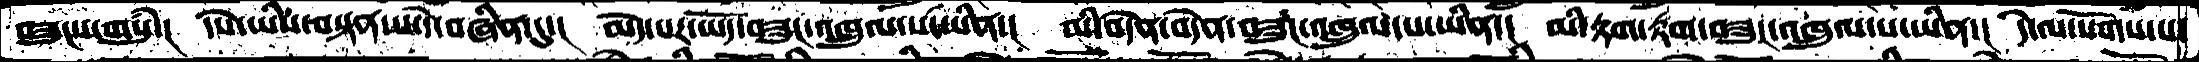བཟུངས་གསུཾ་།  དཔེ་ཡིས་བསྟན་པ་དེ་བཞིན་དུ་།  མེད་པར་ཡོད་བཟུང་འཁྲུལ་པ་ཡིན་།  མི་བདེན་བདེན་བཟུང་འཁྲུལ་པ་ཡིན་།  མི་རྟག་རྟག་བཟུང་འཁྲུལ་པ་ཡིན་།  དེ་ལ་སོགས་པ་
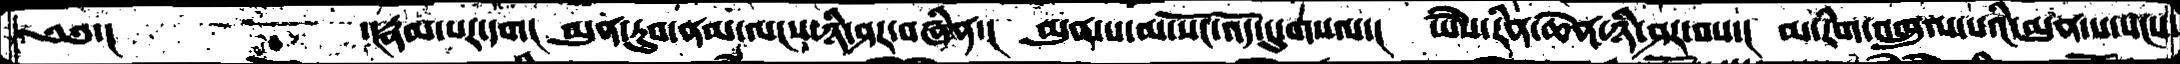༄༅་།        ་།རྣམ་པར་དག།  མུན་རུབ་ནམ་ལངས་ཉི་ཤར་བཞིན་།  མུན་པ་མ་སོང་འོད་དུ་གསལ་།  ཡཻས་རིན་ཆེན་ཉི་ཤར་བས་།  མ་རིག་འཁྲུལ་པའི་མུན་པ་སངས་
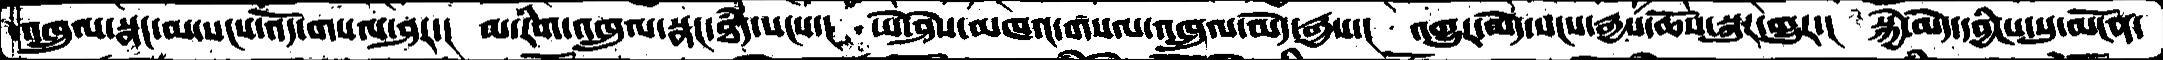འཁྲུལ་སྣང་མ་སངས་འོད་གསལ་ཤར་།  མ་རིག་འཁྲུལ་སྣང་ཐཾད་སངས་།  ཡེ་ཤེས་མཁའ་གསལ་འཁྲུལ་མེད་རྒྱས་།  འགྱུར་མེད་སངས་རྒྱས་ཆོས་སྐུར་གྱུར་།  སྐྱེ་མེད་དབྱིངས་སུ་མངོན་
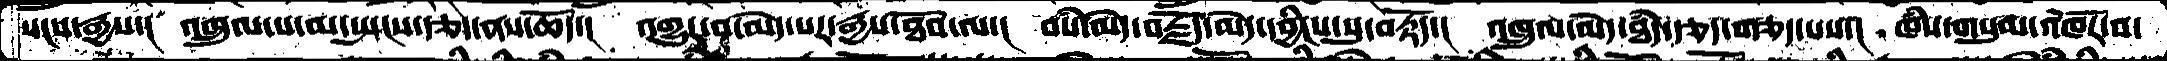སངས་རྒྱས་།  འཁྲུལ་པ་མ་སྤངས་རྩ་ནས་ཆོད་།  འགྱུར་བ་མེད་པར་རྒྱས་ཐོབ་ལ་།  བསཾ་མེད་བརྗོད་མེད་དབྱིངས་སུ་བརྟོད་།  འཁྲུལ་མེད་ཐཾད་རྩད་གཅད་པས་།  ཁཾས་གསུམ་འཁོར་བ་
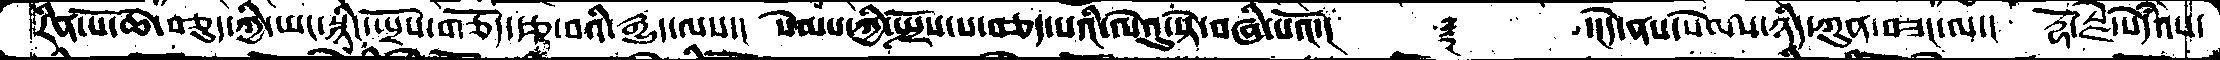རིན་པོ་ཆེ་བཅུད་ཀྱི་ཡང་སྙིང་སྤྲོས་གཅོད་རྩ་བའི་རྒྱུད་ལས་།  སེམས་ཀྱི་སྤྲོས་པ་བཅད་པའི་ལེའུ་སྟེ་བཞི་པའོ་།    ༈    ་།དེ་ནས་སེམས་ཉིད་ཀུན་བཟང་ལ་།  རྡོ་རྗེ་སེདཾའས་
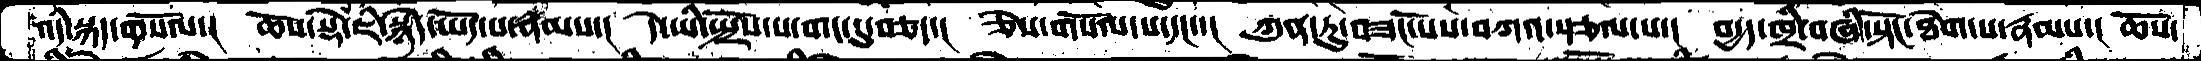འདི་སྐད་གསོལ་།  ཆོས་སྡེ་ཇི་སྙེད་ཡོད་པ་རྣམས་།  དེ་ཡི་སྤྲོས་པ་གང་དུ་བཅད་།  ཅེས་གསོལ་པ་དང་་།  ཀུན་ཏུ་བཟང་པོས་བཀའ་སྩལ་པ་།  བདྱད་ཁྲི་བཞི་སྟོང་ཐེག་པ་རྣམས་།  ཆོས་
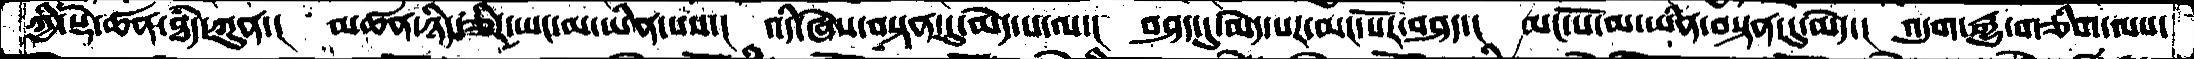ཀྱི་སྡེ་ཚན་ཐཾད་ཀུན་།  མཚན་ཉིད་ཅིར་ཡང་མ་ཡིན་པས་།  འདི་ཞེས་བསྟན་དུ་མེད་པ་ལ་།  བཤད་དུ་མེད་པར་མང་པོར་བཤད་།  མང་པོ་མ་ཡིན་བསྟན་དུ་མེད་།  འདུག་རྒྱུ་གཅིག་ལས་
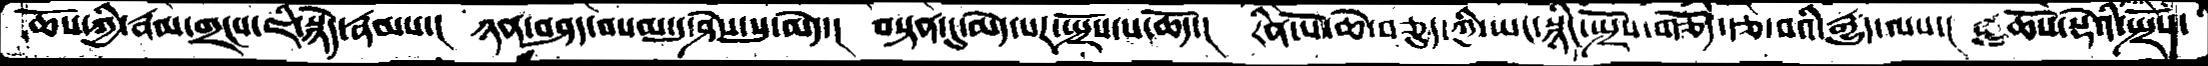ཆསོ་ཀྱི་རྣམ་གྲངས་ཇི་སྙེད་རྣམས་། ཉན་བཤད་བསམ་དུ་ཤེས་སུ་མེད་། བསྟན་དུ་མེད་པར་སྤྲོས་པ་ཆོད་། རིན་པོ་ཆེ་བཅུད་ཀྱི་ཡང་སྙིང་སྤྲོས་གཅོད་རྩ་བའི་རྒྱུད་ལས་། ཆོས་སྡེའི་སྤྲོས་
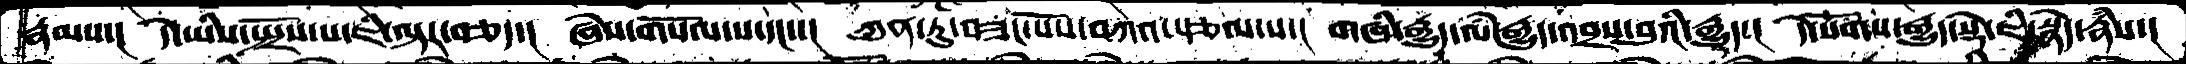རྣམས་།  དེ་ཡིས་སྤྲོས་པ་ཇི་ལྟར་བཅད་།  ཞེས་གསོལ་པ་དང་་།  ཀུན་ཏུ་བཟང་པོས་བཀའ་སྩལ་པ་།  གཞི་རྒྱུད་ལཾ་རྒྱུད་འབྲས་བུའི་རྒྱུད་།  དེ་སོགས་རྒྱུད་སྡེ་ཇི་སྙེད་རྣཾས་།
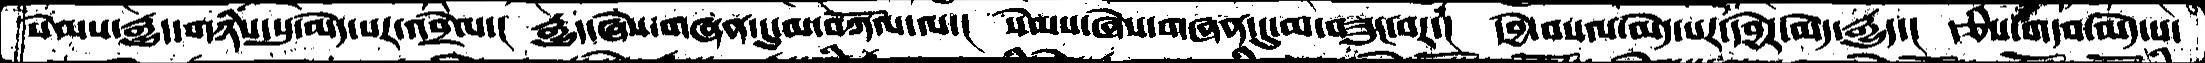སེམས་རྒྱུད་གཉིས་སུ་མེད་པར་འབྲེལ་།  རྒྱུད་ཞེས་གཞན་དུ་མ་བཀོལ་ལ་།  སེམས་ཞེས་གཞན་དུ་མ་བཟུང་བར་།  དབྱེ་བསལ་མེད་པར་དབྱེར་མེད་རྒྱུད་།  རྩིས་གདབ་མེད་པ་
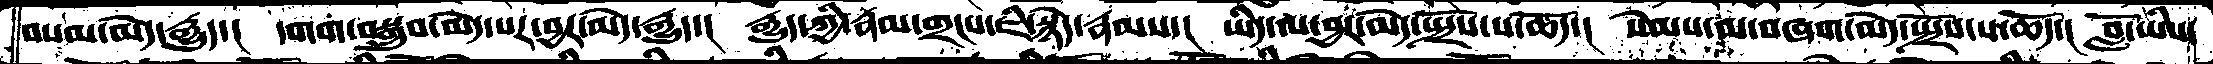བསམ་མེད་རྒྱུད་་།  དགག་བསྒྲུབ་མེད་པར་བྱར་མེད་རྒྱུད་།  རྒྱུད་ཀྱི་རྣམ་གྲངས་ཇི་སྙེད་རྣམས་།  ཡིད་ལ་བྱར་མེད་སྤྲོས་པ་ཆོད་།  སེམས་ལ་བཞག་མེད་སྤྲོས་པ་ཆོད་།  བློ་ཡིས་
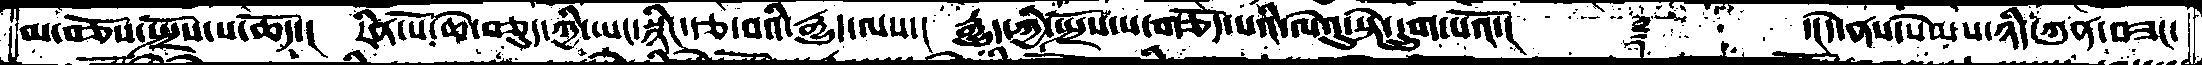མ་བཅོས་སྤྲོས་པ་ཆོད་།  རིན་པོ་ཆེ་བཅུད་ཀྱི་ཡང་སྙིང་རྩ་བའི་རྒྱུད་ལས་།  རྒྱུད་ཀྱི་སྤྲོས་པ་གཅོད་པའི་ལེའུ་སྟེ་དྲུག་པའོ་།    ༈    ་།དེ་ནས་སེམས་ཉིད་ཀུན་བཟང་
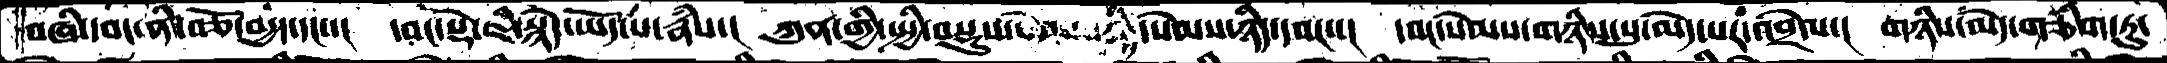བཞི་དབང་ནི་བཅོ་བདྱད་དང་་།   དབང་སྡེ་ཇི་སྙེད་ཡོད་པ་རྣཾས་།  ཀུན་གྱི་སྤྱི་བསྡུས་    སེམས་ཉིད་དབང་་།  དབང་སེམས་གཉིས་སུ་མེད་པར་འབྲེལ་།  གཉིས་མེད་གཅིག་ཏུ་
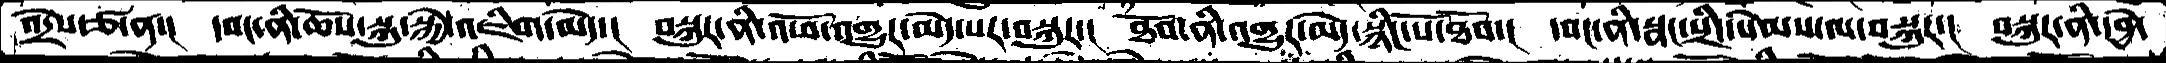འདྲེས་ཙ་ན་།   དབང་ནི་ཆོས་སྐུ་སྐྱེ་འཇིག་མེད་།  བསྐུར་ནི་འཕོ་འགྱུར་མེད་པར་བསྐུར་།  ཐོབ་ནི་འགྱུར་མེད་སྙིང་པོ་ཐོབ་།  དབང་ནི་སྣང་་སྲིད་སེམས་ལ་བསྐུར་།  བསྐུར་ནི་དབྱེ་
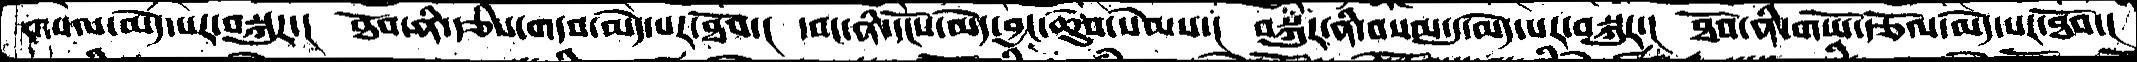གསལ་མེད་པར་བསྐུར་།  ཐོབ་ནི་རྩིས་གདབ་མེད་པར་ཐོབ་།  དབང་ནི་དངོས་མེད་བྱང་ཆུབ་སེམས་།  བསྐུར་ནི་བསམ་དུ་མེད་པར་བསྐུར་།  ཐོབ་ནི་གཡོ་རྩོལ་མེད་པར་ཐོབ་།
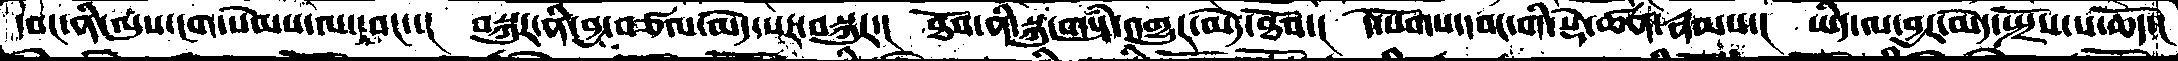དབང་ནི་ལུས་ངག་སེམས་ལ་དབང་་།  བསྐུར་ནི་བྱ་བཙལ་མེད་པར་བསྐུར་།  ཐོབ་ནི་སྐུ་གསུཾ་འགྱུར་མེད་ཐོབ་།  དེ་སོགས་དབང་གི་སྡེ་ཚན་རྣམས་།  ཡིད་ལ་བྱར་མེད་སྤྲོས་པ་ཆོད་།
